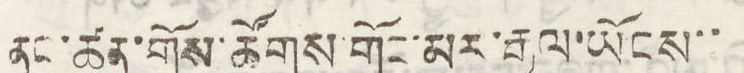ནང་ཚན་གྲོས་ཚོགས་གོང་མར་རྒྱལ་ཡོངས་་
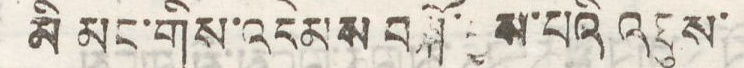མི མང་གིས་འདེམས བསྐོ་བྱས་པའི འཐུས་
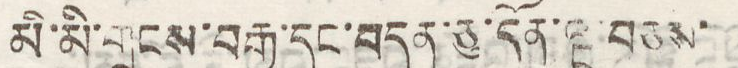མི་མི་གྲངས་བརྒྱ་དང་བདུན་ཅུ་དོན་སྔ་བཅས་
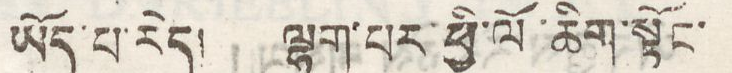ཡོད་པ་རེད། ལྷག་པར་ཕྱི་ལོ་ཆིག་སྟོང་
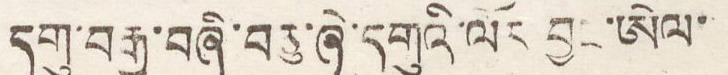དགུ་བརྒྱ་བཞི་བཅུ་ཞེ་དགུའི་ལོར བྱང་ཨེལ་
